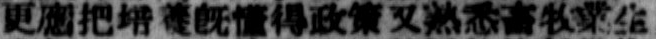更應把培養既懂得政策又熟悉畜牧業生
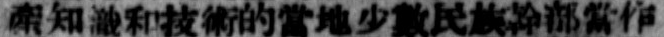產知識和技術的當地少數民族幹部當作
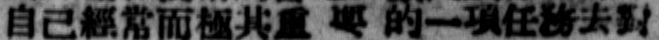自己經常而極其重 要 的一項任務去對
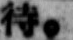待。
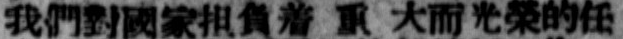我們對國家担負着 重 大而光榮的任
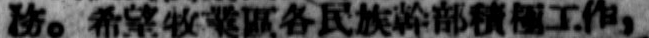務。希望牧業區各民族幹部積極工作，
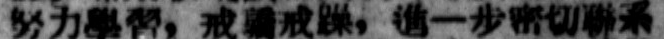努力學習，戒驕戒躁，進一步密切聯繫
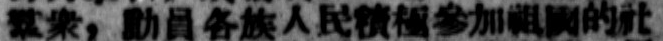羣衆，動員各族人民積極參加祖國的社
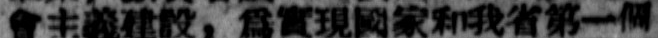會主義建設，爲實現國家和我省第一個
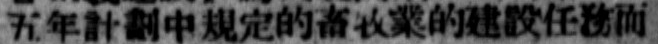五年計劃中規定的畜牧業的建設任務而
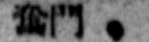奮鬥。
